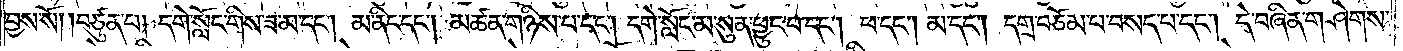བྱས་སོ། །བཙུན་པ། དགེ་སློང་གིས་ཟ་མ་དང༌། མ་ནིང་དང༌། མཚན་གཉིས་པ་དང༌། དགེ་སློང་མ་སུན་ཕྱུང་བ་དང༌། ཕ་དང༌། མ་དང༌། དགྲ་བཅོམ་པ་བསད་པ་དང༌། དེ་བཞིན་གཤེགས་
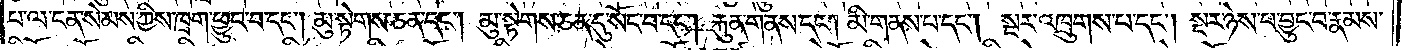པ་ལ་ངན་སེམས་ཀྱིས་ཁྲག་ཕྱུང་བ་དང༌། མུ་སྟེགས་ཅན་དང༌། མུ་སྟེགས་ཅན་དུ་སོང་བ་དང༌། རྐུན་གནས་དང༌། མི་གནས་པ་དང༌། སྔར་འཁྲུགས་པ་དང༌། སྔར་ཉེས་པར་བྱུང་བ་རྣམས་
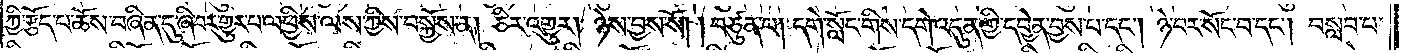ཀྱི་རྩོད་པ་ཆོས་བཞིན་དུ་ཞི་བར་གྱུར་པ་ལ་ཕྱིས་ལས་ཀྱིས་བསྐྱོས་ན། ཅིར་འགྱུར། ཉེས་བྱས་སོ། །བཙུན་པ། དགེ་སློང་གིས་དགེ་འདུན་གྱི་དབྱེན་བྱས་པ་དང༌། ཉེ་བར་སོང་བ་དང༌། བསླབ་པ་
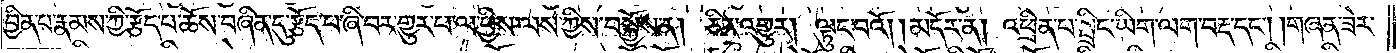བྱིན་པ་རྣམས་ཀྱི་རྩོད་པ་ཆོས་བཞིན་དུ་རྩོད་པ་ཞི་བར་གྱུར་པ་ལ་ཕྱིས་ལས་ཀྱིས་བསྐྱོས་ན། ཅིར་འགྱུར། ལྟུང་བའོ། །མདོར་ན། འཕྲིན་པ་སྤྲིང་ཡིག་ལག་བརྡ་དང༌། །གཞན་ཟེར་
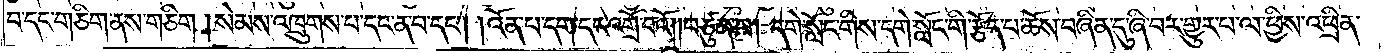བ་དང་གཅིག་ནས་གཅིག །སེམས་འཁྲུགས་པ་དང་ན་བ་དང༌། །འོན་པ་དག་དང་འགྲོ་བའོ། །བཙུན་པ། དགེ་སློང་གིས་དགེ་སློང་གི་རྩོད་པ་ཆོས་བཞིན་དུ་ཞི་བར་གྱུར་པ་ལ་ཕྱིས་འཕྲིན་
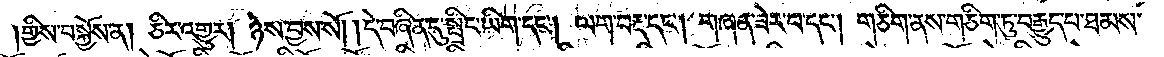།གྱིས་བསྐྱོས་ན། ཅིར་འགྱུར། ཉེས་བྱས་སོ། །དེ་བཞིན་དུ་སྤྲིང་ཡིག་དང༌། ལག་བརྡ་དང༌། གཞན་ཟེར་བ་དང༌། གཅིག་ནས་གཅིག་ཏུ་བརྒྱུད་པ་ཐམས་
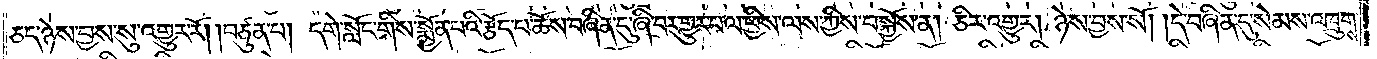ཅད་ཉེས་བྱས་སུ་འགྱུར་རོ། །བཙུན་པ། དགེ་སློང་གིས་སྨྱོན་པའི་རྩོད་པ་ཆོས་བཞིན་དུ་ཞི་བར་གྱུར་པ་ལ་ཕྱིས་ལས་ཀྱིས་བསྐྱོས་ན། ཅིར་འགྱུར། ཉེས་བྱས་སོ། །དེ་བཞིན་དུ་སེམས་འཁྲུགས་
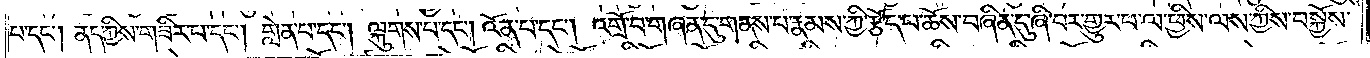པ་དང༌། ནད་ཀྱིས་གཟིར་པ་དང༌། གླེན་པ་དང༌། ལྐུགས་པ་དང༌། འོན་པ་དང༌། འགྲོ་བ་གཞན་དུ་གནས་པ་རྣམས་ཀྱི་རྩོད་པ་ཆོས་བཞིན་དུ་ཞི་བར་གྱུར་པ་ལ་ཕྱིས་ལས་ཀྱིས་བསྐྱོས་
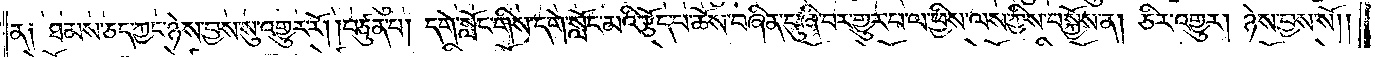ན༑ ཐམས་ཅད་ཀྱང་ཉེས་བྱས་སུ་འགྱུར་རོ། །བཙུན་པ། དགེ་སློང་གིས་དགེ་སློང་མའི་རྩོད་པ་ཆོས་བཞིན་དུ་ཞི་བར་གྱུར་པ་ལ་ཕྱིས་ལས་ཀྱིས་བསྐྱོས་ན། ཅིར་འགྱུར། ཉེས་བྱས་སོ༎
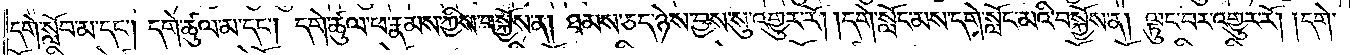དགེ་སློབ་མ་དང༌། དགེ་ཚུལ་མ་དང༌། དགེ་ཚུལ་ཕ་རྣམས་ཀྱིས་བསྐྱོས་ན། ཐམས་ཅད་ཉེས་བྱས་སུ་འགྱུར་རོ། །དགེ་སློང་མས་དགེ་སློང་མའི་བསྐྱོས་ན། ལྟུང་བར་འགྱུར་རོ། །དགེ་
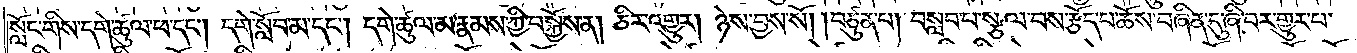སློང་གིས་དགེ་ཚུལ་ཕ་དང༌། དགེ་སློབ་མ་དང༌། དགེ་ཚུལ་མ་རྣམས་ཀྱི་བསྐྱོས་ན། ཅིར་འགྱུར། ཉེས་བྱས་སོ། །བཙུན་པ། བསླབ་པ་སྩལ་བས་རྩོད་པ་ཆོས་བཞིན་དུ་ཞི་བར་གྱུར་པ་
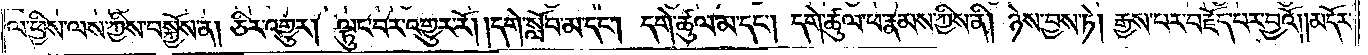ལ་ཕྱིས་ལས་ཀྱིས་བསྐྱོས་ན། ཅིར་འགྱུར། ལྟུང་བར་འགྱུར་རོ། །དགེ་སློབ་མ་དང༌། དགེ་ཚུལ་མ་དང༌། དགེ་ཚུལ་ཕ་རྣམས་ཀྱིས་ནི། ཉེས་བྱས་ཏེ། རྒྱས་པར་བརྗོད་པར་བྱའོ།    །མདོར་
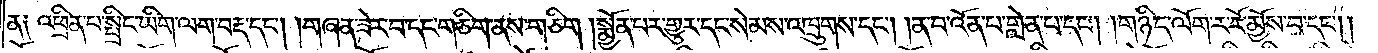ན༑ འཕྲིན་པ་སྤྲིང་ཡིག་ལག་བརྡ་དང༌། །གཞན་ཟེར་བ་དང་གཅིག་ནས་གཅིག །སྨྱོན་པར་གྱུར་དང་སེམས་འཁྲུགས་དང༌། །ན་བ་འོན་པ་གླེན་པ་དང༌། །གཉིད་ལོག་ར་རོ་མྱོས་པ་དང༌༎
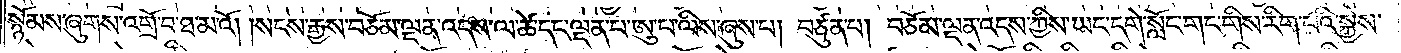སྙོམས་ཞུགས་འགྲོ་བ་ཐ་མའོ། །སངས་རྒྱས་བཅོམ་ལྡན་འདས་ལ་ཚེ་དང་ལྡན་པ་ཨུ་པ་ལིས་ཞུས་པ། བཙུན་པ། བཅོམ་ལྡན་འདས་ཀྱིས་ཡང་དགེ་སློང་གང་གིས་རིག་པའི་སྐྱེས་
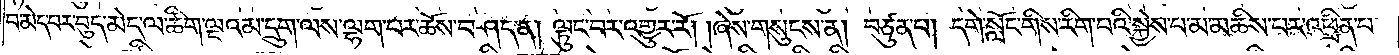བ་མེད་པར་བུད་མེད་ལ་ཚིག་ལྔའམ་དྲུག་ལས་ལྷག་པར་ཆོས་བཤད་ན། ལྟུང་བར་འགྱུར་རོ། །ཞེས་གསུངས་ན། བཙུན་པ། དགེ་སློང་གིས་རིག་པའི་སྐྱེས་པ་མ་མཆིས་པར་འཕྲིན་པ་
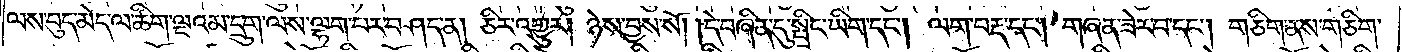ལས་བུད་མེད་ལ་ཚིག་ལྔའམ་དྲུག་ལས་ལྷག་པར་བཤད་ན། ཅིར་འགྱུར། ཉེས་བྱས་སོ། །དེ་བཞིན་དུ་སྤྲིང་ཡིག་དང༌། ལག་བརྡ་དང༌། གཞན་ཟེར་བ་དང༌། གཅིག་ནས་གཅིག་
